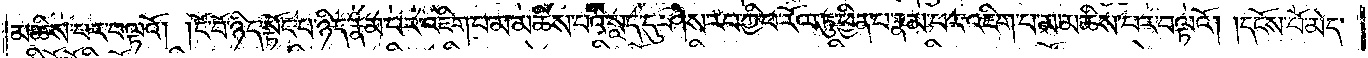མཆིས་པར་བལྟའོ། །ངོ་བོ་ཉིད་སྟོང་པ་ཉིད་རྣམ་པར་འཇིག་པ་མ་མཆིས་པའི་སླད་དུ་ཤེས་རབ་ཀྱི་ཕ་རོལ་ཏུ་ཕྱིན་པ་རྣམ་པར་འཇིག་པ་མ་མཆིས་པར་བལྟའོ། །དངོས་པོ་མེད་
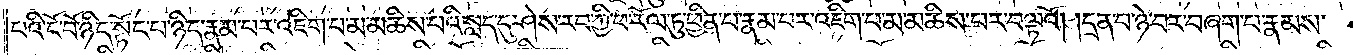པའི་ངོ་བོ་ཉིད་སྟོང་པ་ཉིད་རྣམ་པར་འཇིག་པ་མ་མཆིས་པའི་སླད་དུ་ཤེས་རབ་ཀྱི་ཕ་རོལ་ཏུ་ཕྱིན་པ་རྣམ་པར་འཇིག་པ་མ་མཆིས་པར་བལྟའོ། །དྲན་པ་ཉེ་བར་གཞག་པ་རྣམས་
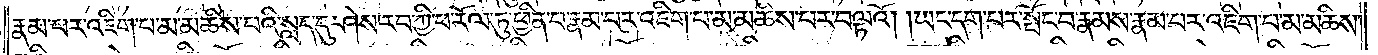རྣམ་པར་འཇིག་པ་མ་མཆིས་པའི་སླད་དུ་ཤེས་རབ་ཀྱི་ཕ་རོལ་ཏུ་ཕྱིན་པ་རྣམ་པར་འཇིག་པ་མ་མཆིས་པར་བལྟའོ། །ཡང་དག་པར་སྤོང་བ་རྣམས་རྣམ་པར་འཇིག་པ་མ་མཆིས་
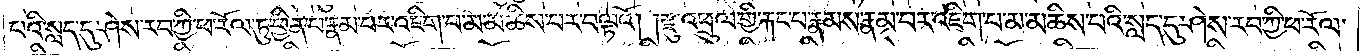པའི་སླད་དུ་ཤེས་རབ་ཀྱི་ཕ་རོལ་ཏུ་ཕྱིན་པ་རྣམ་པར་འཇིག་པ་མ་མཆིས་པར་བལྟའོ། །རྫུ་འཕྲུལ་གྱི་རྐང་པ་རྣམས་རྣམ་པར་འཇིག་པ་མ་མཆིས་པའི་སླད་དུ་ཤེས་རབ་ཀྱི་ཕ་རོལ་
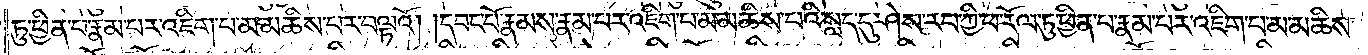ཏུ་ཕྱིན་པ་རྣམ་པར་འཇིག་པ་མ་མཆིས་པར་བལྟའོ། །དབང་པོ་རྣམས་རྣམ་པར་འཇིག་པ་མ་མཆིས་པའི་སླད་དུ་ཤེས་རབ་ཀྱི་ཕ་རོལ་ཏུ་ཕྱིན་པ་རྣམ་པར་འཇིག་པ་མ་མཆིས་
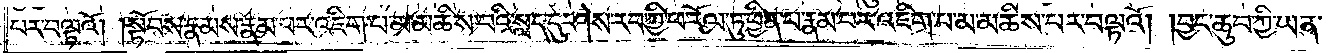པར་བལྟའོ། །སྟོབས་རྣམས་རྣམ་པར་འཇིག་པ་མ་མཆིས་པའི་སླད་དུ་ཤེས་རབ་ཀྱི་ཕ་རོལ་ཏུ་ཕྱིན་པ་རྣམ་པར་འཇིག་པ་མ་མཆིས་པར་བལྟའོ། །བྱང་ཆུབ་ཀྱི་ཡན་
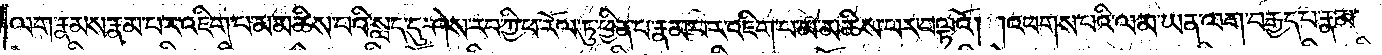ལག་རྣམས་རྣམ་པར་འཇིག་པ་མ་མཆིས་པའི་སླད་དུ་ཤེས་རབ་ཀྱི་ཕ་རོལ་ཏུ་ཕྱིན་པ་རྣམ་པར་འཇིག་པ་མ་མཆིས་པར་བལྟའོ། །འཕགས་པའི་ལམ་ཡན་ལག་བརྒྱད་པ་རྣམ་
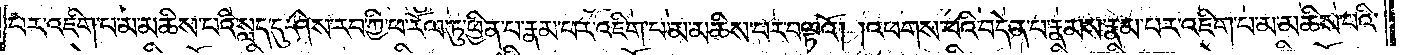པར་འཇིག་པ་མ་མཆིས་པའི་སླད་དུ་ཤེས་རབ་ཀྱི་ཕ་རོལ་ཏུ་ཕྱིན་པ་རྣམ་པར་འཇིག་པ་མ་མཆིས་པར་བལྟའོ། །འཕགས་པའི་བདེན་པ་རྣམས་རྣམ་པར་འཇིག་པ་མ་མཆིས་པའི་
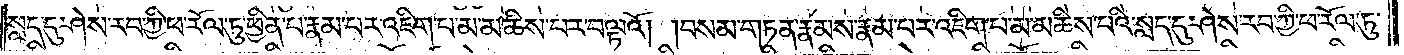སླད་དུ་ཤེས་རབ་ཀྱི་ཕ་རོལ་ཏུ་ཕྱིན་པ་རྣམ་པར་འཇིག་པ་མ་མཆིས་པར་བལྟའོ། །བསམ་གཏན་རྣམས་རྣམ་པར་འཇིག་པ་མ་མཆིས་པའི་སླད་དུ་ཤེས་རབ་ཀྱི་ཕ་རོལ་ཏུ་
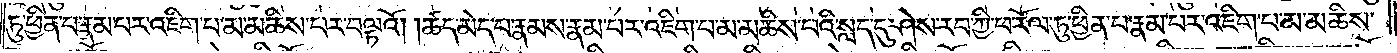ཏུ་ཕྱིན་པ་རྣམ་པར་འཇིག་པ་མ་མཆིས་པར་བལྟའོ། །ཚད་མེད་པ་རྣམས་རྣམ་པར་འཇིག་པ་མ་མཆིས་པའི་སླད་དུ་ཤེས་རབ་ཀྱི་ཕ་རོལ་ཏུ་ཕྱིན་པ་རྣམ་པར་འཇིག་པ་མ་མཆིས་
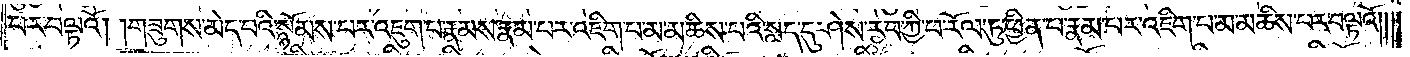པར་བལྟའོ། །གཟུགས་མེད་པའི་སྙོམས་པར་འཇུག་པ་རྣམས་རྣམ་པར་འཇིག་པ་མ་མཆིས་པའི་སླད་དུ་ཤེས་རབ་ཀྱི་ཕ་རོལ་ཏུ་ཕྱིན་པ་རྣམ་པར་འཇིག་པ་མ་མཆིས་པར་བལྟའོ། །
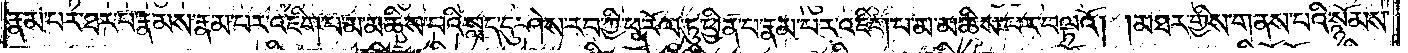རྣམ་པར་ཐར་པ་རྣམས་རྣམ་པར་འཇིག་པ་མ་མཆིས་བའི་སླད་དུ་ཤེས་རབ་ཀྱི་ཕ་རོལ་ཏུ་ཕྱིན་པ་རྣམ་པར་འཇིག་པ་མ་མཆིས་པར་བལྟའོ། །མཐར་གྱིས་གནས་པའི་སྙོམས་
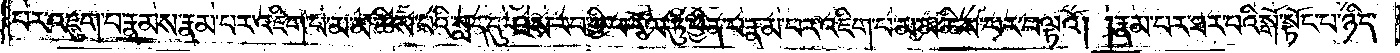པར་འཇུག་པ་རྣམས་རྣམ་པར་འཇིག་པ་མ་མཆིས་པའི་སླད་དུ་ཤེས་རབ་ཀྱི་ཕ་རོལ་ཏུ་ཕྱིན་པ་རྣམ་པར་འཇིག་པ་མ་མཆིས་པར་བལྟའོ། །རྣམ་པར་ཐར་པའི་སྒོ་སྟོང་པ་ཉིད་
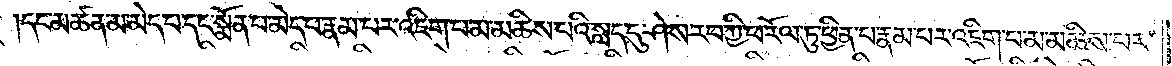དང་མཚན་མ་མེད་པ་དང་སྨོན་པ་མེད་པ་རྣམ་པར་འཇིག་པ་མ་མཆིས་པའི་སླད་དུ་ཤེས་རབ་ཀྱི་ཕ་རོལ་ཏུ་ཕྱིན་པ་རྣམ་པར་འཇིག་པ་མ་མཆིས་པར་
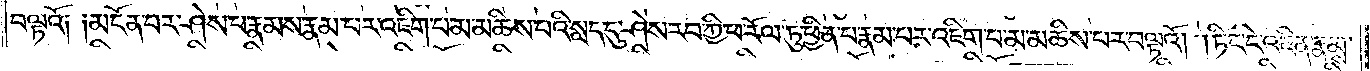བལྟའོ༑ ༑མངོན་པར་ཤེས་པ་རྣམས་རྣམ་པར་འཇིག་པ་མ་མཆིས་པའི་སླད་དུ་ཤེས་རབ་ཀྱི་ཕ་རོལ་ཏུ་ཕྱིན་པ་རྣམ་པར་འཇིག་པ་མ་མཆིས་པར་བལྟའོ། །ཏིང་ངེ་འཛིན་རྣམས་
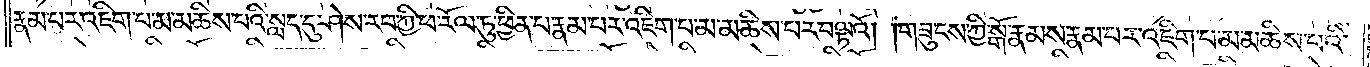རྣམ་པར་འཇིག་པ་མ་མཆིས་པའི་སླད་དུ་ཤེས་རབ་ཀྱི་ཕ་རོལ་ཏུ་ཕྱིན་པ་རྣམ་པར་འཇིག་པ་མ་མཆིས་པར་བལྟའོ། །གཟུངས་ཀྱི་སྒོ་རྣམས་རྣམ་པར་འཇིག་པ་མ་མཆིས་པའི་
